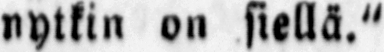nytkin on siellä."
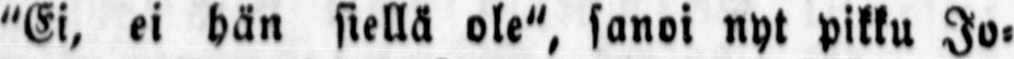"Ei, ei hän siellä ole", sanoi nyt pikku Jo-
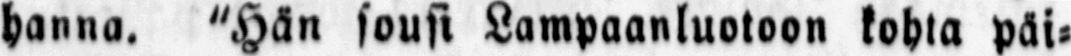hanna. "Hän sousi Lampaanluotoon kohta päi-
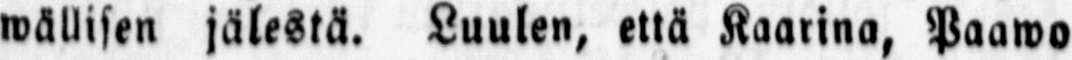wällisen jälestä. Luulen, että Kaarina, Paawo
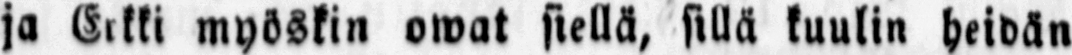ja Erkki myöskin owat siellä, sillä kuulin heidän
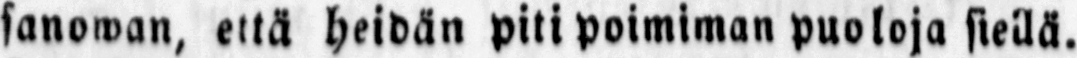sanowan, että heidän piti poimiman puoloja siellä.
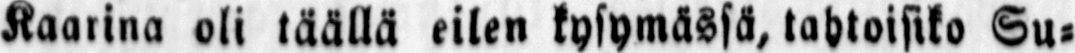Kaarina oli täällä eilen kysymässä, tahtoisiko Su-
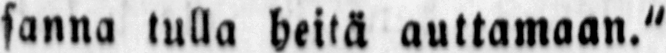sanna tulla heitä auttamaan."
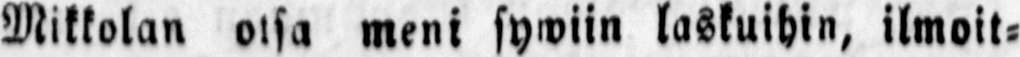Mikkolan otsa meni sywiin laskuihin, ilmoit-
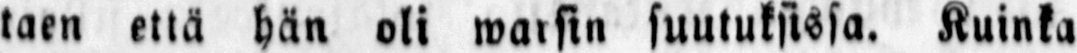taen että hän oli warsin suutuksissa. Kuinka
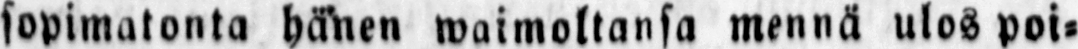sopimatonta hänen waimoltansa mennä ulos poi-
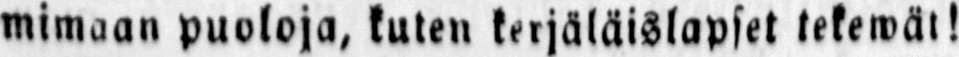mimaan puoloja, kuten kerjäläislapset tekewät!
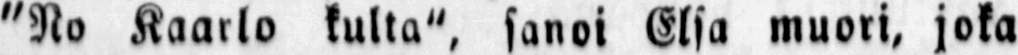"No Kaarlo kulta", sanoi Elsa muori, joka
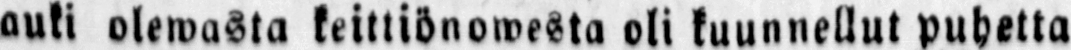auki olewasta keittiönowesta oli kuunnellut puhetta
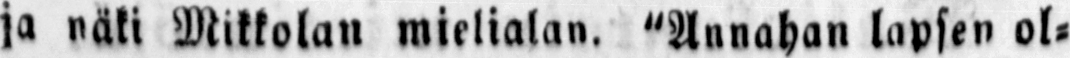ja näki Mikkolan mielialan. "Annahan lapsen ol-
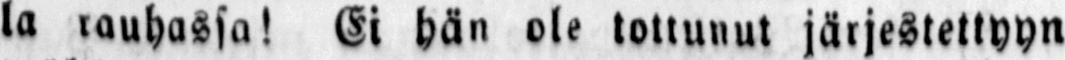la rauhassa! Ei hän ole tottunut järjestettyyn
